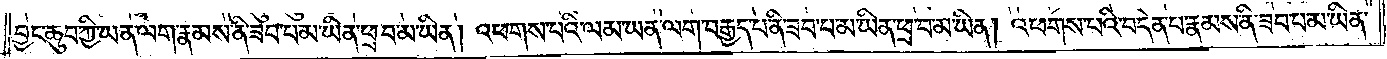བྱང་ཆུབ་ཀྱི་ཡན་ལག་རྣམས་ནི་ཟབ་པ་མ་ཡིན་ཕྲ་བ་མ་ཡིན། འཕགས་པའི་ལམ་ཡན་ལག་བརྒྱད་པ་ནི་ཟབ་པ་མ་ཡིན་ཕྲ་བ་མ་ཡིན། འཕགས་པའི་བདེན་པ་རྣམས་ནི་ཟབ་པ་མ་ཡིན་
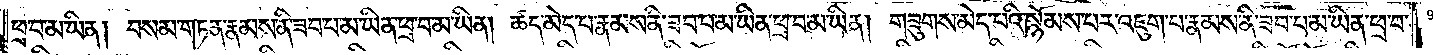ཕྲ་བ་མ་ཡིན། བསམ་གཏན་རྣམས་ནི་ཟབ་པ་མ་ཡིན་ཕྲ་བ་མ་ཡིན། ཆད་མེད་པ་རྣམས་ནི་ཟབ་པ་མ་ཡིན་ཕྲ་བ་མ་ཡིན། གཟུགས་མེད་པའི་སྙོམས་པར་འཇུག་པ་རྣམས་ནི་ཟབ་པ་མ་ཡིན་ཕྲ་བ་
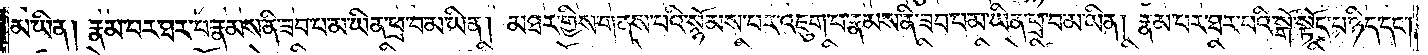མ་ཡིན། རྣམ་པར་ཐར་པ་རྣམས་ནི་ཟབ་པ་མ་ཡིན་ཕྲ་བ་མ་ཡིན། མཐར་གྱིས་གནས་པའི་སྙོམས་པར་འཇུག་པ་རྣམས་ནི་ཟབ་པ་མ་ཡིན་ཕྲ་བ་མ་ཡིན། རྣམ་པར་ཐར་པའི་སྒོ་སྟོང་པ་ཉིད་དང༌།
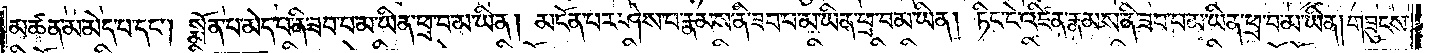མཚན་མ་མེད་པ་དང༌། སྨོན་པ་མེད་པ་ནི་ཟབ་པ་མ་ཡིན་ཕྲ་བ་མ་ཡིན། མངོན་པར་ཤེས་པ་རྣམས་ནི་ཟབ་པ་མ་ཡིན་ཕྲ་བ་མ་ཡིན། ཏིང་ངེ་འཛིན་རྣམས་ནི་ཟབ་པ་མ་ཡིན་ཕྲ་བ་མ་ཡིན། གཟུངས་
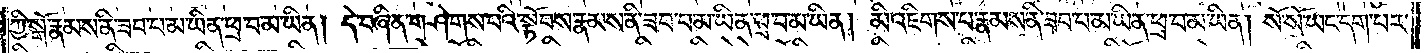ཀྱི་སྒོ་རྣམས་ནི་ཟབ་པ་མ་ཡིན་ཕྲ་བ་མ་ཡིན། དེ་བཞིན་གཤེགས་པའི་སྟོབས་རྣམས་ནི་ཟབ་པ་མ་ཡིན་ཕྲ་བ་མ་ཡིན། མི་འཇིགས་པ་རྣམས་ནི་ཟབ་པ་མ་ཡིན་ཕྲ་བ་མ་ཡིན། སོ་སོ་ཡང་དག་པར་
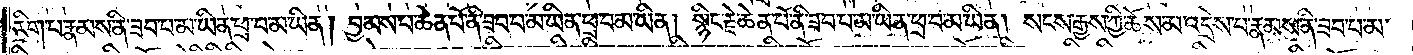རིག་པ་རྣམས་ནི་ཟབ་པ་མ་ཡིན་ཕྲ་བ་མ་ཡིན། བྱམས་པ་ཆེན་པོ་ནི་ཟབ་པ་མ་ཡིན་ཕྲ་བ་མ་ཡིན། སྙིང་རྗེ་ཆེན་པོ་ནི་ཟབ་པ་མ་ཡིན་ཕྲ་བ་མ་ཡིན། སངས་རྒྱས་ཀྱི་ཆོས་མ་འདྲེས་པ་རྣམས་ནི་ཟབ་པ་
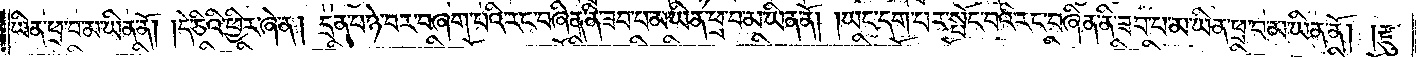མ་ཡིན་ཕྲ་བ་མ་ཡིན་ནོ། །དེ་ཅིའི་ཕྱིར་ཞེ་ན། དྲན་པ་ཉེ་བར་བཞག་པའི་རང་བཞིན་ནི་ཟབ་པ་མ་ཡིན་ཕྲ་བ་མ་ཡིན་ནོ། །ཡང་དག་པར་སྤོང་བའི་རང་བཞིན་ནི་ཟབ་པ་མ་ཡིན་ཕྲ་བ་མ་ཡིན་ནོ། །རྫུ་
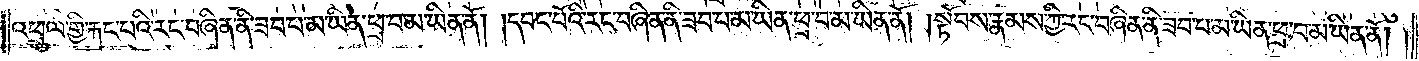འཕྲུལ་གྱི་རྐང་པའི་རང་བཞིན་ནི་ཟབ་པ་མ་ཡིན་ཕྲ་བ་མ་ཡིན་ནོ། །དབང་པོའི་རང་བཞིན་ནི་ཟབ་པ་མ་ཡིན་ཕྲ་བ་མ་ཡིན་ནོ། །སྟོབས་རྣམས་ཀྱི་རང་བཞིན་ནི་ཟབ་པ་མ་ཡིན་ཕྲ་བ་མ་ཡིན་ནོ། །
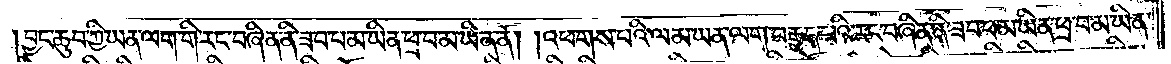བྱང་ཆུབ་ཀྱི་ཡན་ལག་གི་རང་བཞིན་ནི་ཟབ་པ་མ་ཡིན་ཕྲ་བ་མ་ཡིན་ནོ། །འཕགས་པའི་ལམ་ཡན་ལག་བརྒྱད་པའི་རང་བཞིན་ནི་ཟབ་པ་མ་ཡིན་ཕྲ་བ་མ་ཡིན་
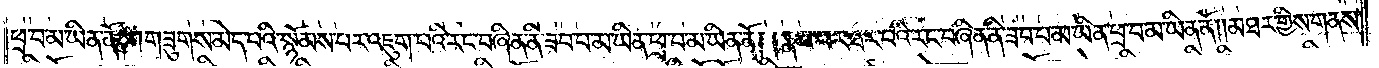ཕྲ་བ་མ་ཡིན་ནོ། །གཟུགས་མེད་པའི་སྙོམས་པར་འཇུག་པའི་རང་བཞིན་ནི་ཟབ་པ་མ་ཡིན་ཕྲ་བ་མ་ཡིན་ནོ། །རྣམ་པར་ཐར་པའི་རང་བཞིན་ནི་ཟབ་པ་མ་ཡིན་ཕྲ་བ་མ་ཡིན་ནོ། །མཐར་གྱིས་གནས་
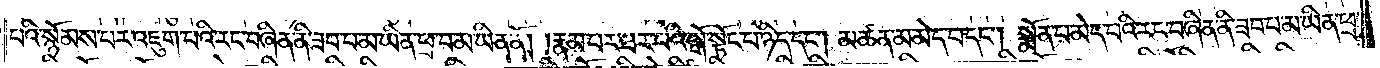པའི་སྙོམས་པར་འཇུག་པའི་རང་བཞིན་ནི་ཟབ་པ་མ་ཡིན་ཕྲ་བ་མ་ཡིན་ནོ། །རྣམ་པར་ཐར་པའི་སྒོ་སྟོང་པ་ཉིད་དང༌། མཚན་མ་མེད་པ་དང༌། སྨོན་པ་མེད་པའི་རང་བཞིན་ནི་ཟབ་པ་མ་ཡིན་ཕྲ་
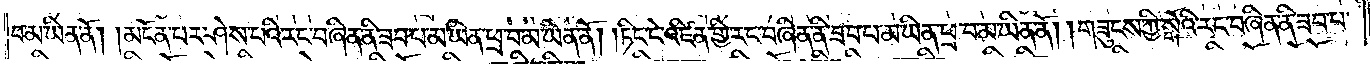བ་མ་ཡིན་ནོ། །མངོན་པར་ཤེས་པའི་རང་བཞིན་ནི་ཟབ་པ་མ་ཡིན་ཕྲ་བ་མ་ཡིན་ནོ། །ཏིང་ངེ་འཛིན་གྱི་རང་བཞིན་ནི་ཟབ་པ་མ་ཡིན་ཕྲ་བ་མ་ཡིན་ནོ། །གཟུངས་ཀྱི་སྒོའི་རང་བཞིན་ནི་ཟབ་པ་
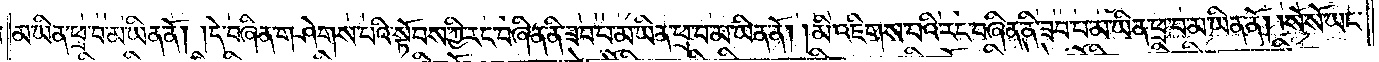མ་ཡིན་ཕྲ་བ་མ་ཡིན་ནོ། །དེ་བཞིན་གཤེགས་པའི་སྟོབས་ཀྱི་རང་བཞིན་ནི་ཟབ་པ་མ་ཡིན་ཕྲ་བ་མ་ཡིན་ནོ། །མི་འཇིགས་པའི་རང་བཞིན་ནི་ཟབ་པ་མ་ཡིན་ཕྲ་བ་མ་ཡིན་ནོ། །སོ་སོ་ཡང་
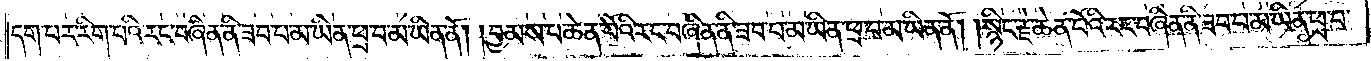དག་པར་རིག་པའི་རང་བཞིན་ནི་ཟབ་པ་མ་ཡིན་ཕྲ་བ་མ་ཡིན་ནོ། །བྱམས་པ་ཆེན་པོའི་རང་བཞིན་ནི་ཟབ་པ་མ་ཡིན་ཕྲ་བ་མ་ཡིན་ནོ། །སྙིང་རྗེ་ཆེན་པོའི་རང་བཞིན་ནི་ཟབ་པ་མ་ཡིན་ཕྲ་བ་
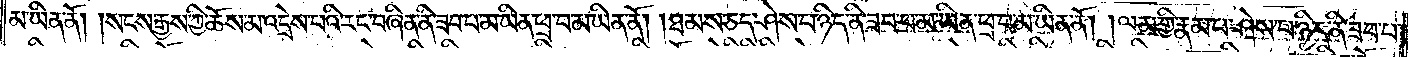མ་ཡིན་ནོ། །སངས་རྒྱས་ཀྱི་ཆོས་མ་འདྲེས་པའི་རང་བཞིན་ནི་ཟབ་པ་མ་ཡིན་ཕྲ་བ་མ་ཡིན་ནོ། །ཐམས་ཅད་ཤེས་པ་ཉིད་ནི་ཟབ་པ་མ་ཡིན་ཕྲ་བ་མ་ཡིན་ནོ། །ལམ་གྱི་རྣམ་པ་ཤེས་པ་ཉིད་ནི་ཟབ་པ་
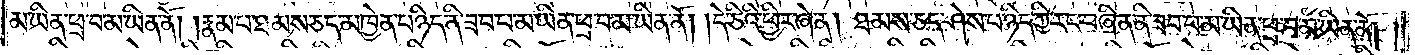མ་ཡིན། ཕྲ་བ་མ་ཡིན་ནོ། །རྣམ་པ་ཐམས་ཅད་མཁྱེན་པ་ཉིད་ནི་ཟབ་པ་མ་ཡིན་ཕྲ་བ་མ་ཡིན་ནོ། །དེ་ཅིའི་ཕྱིར་ཞེ་ན། ཐམས་ཅད་ཤེས་པ་ཉིད་ཀྱི་རང་བཞིན་ནི་ཟབ་པ་མ་ཡིན་ཕྲ་བ་མ་ཡིན་ནོ། །
